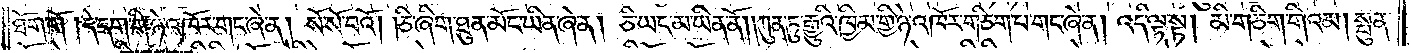ཐོག་གོ །དེ་དག་གི་ཉེ་འཁོར་གང་ཞེ་ན། སོ་སོ་བའོ། །ཅི་ཞིག་ཐུན་མོང་ཡིན་ཞེ་ན། ཅི་ཡང་མ་ཡིན་ནོ། །ཀུན་ཏུ་རྒྱུའི་ཁྱིམ་གྱི་ཉེ་འཁོར་གཅིག་པ་གང་ཞེ་ན། འདི་ལྟ་སྟེ། མི་གཅིག་གིའམ། སྤུན་
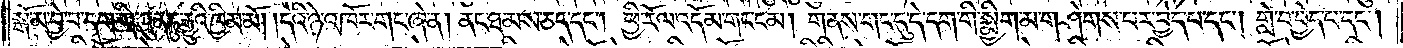སྒོ་མ་བྱེ་བ་དག་གི་ཀུན་ཏུ་རྒྱུའི་ཁྱིམ་མོ། །དེའི་ཉེ་འཁོར་གང་ཞེ་ན། ནང་ཐམས་ཅད་དང༌། ཕྱི་རོལ་འདོམ་གང་ངམ། གནས་གང་དུ་དེ་དག་གི་སྨྱིག་མ་གཤེགས་པར་བྱེད་པ་དང༌། གླེ་བ་བྱེད་པ་དང༌།
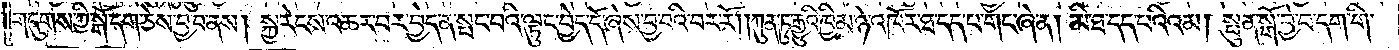གདུགས་ཀྱི་སྒོ་དག་ཅེས་བྱ་བ་ནས། སྐྱ་རེངས་འཆར་བར་བྱེད་ན་སྤང་བའི་ལྟུང་བྱེད་དོ་ཞེས་བྱ་བའི་བར་རོ། །ཀུན་ཏུ་རྒྱུའི་ཁྱིམ་ཉེ་འཁོར་ཐ་དད་པ་གང་ཞེ་ན། མི་ཐ་དད་པའིའམ། སྤུན་སྒོ་བྱེ་བ་དག་གི་
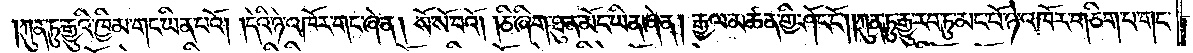ཀུན་ཏུ་རྒྱུའི་ཁྱིམ་གང་ཡིན་པའོ། །དེའི་ཉེ་འཁོར་གང་ཞེ་ན། སོ་སོ་བའོ། །ཅི་ཞིག་ཐུན་མོང་ཡིན་ཞེ་ན། རྒྱལ་མཚན་གྱི་ཤོང་ངོ༌། །ཀུན་ཏུ་རྒྱུ་རབ་ཏུ་མང་པོ་ཉེ་འཁོར་གཅིག་པ་གང་
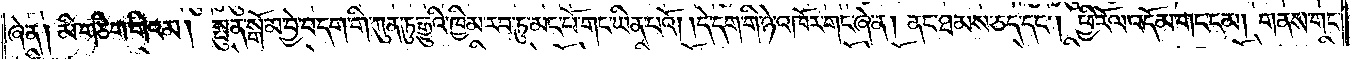ཞེ་ན། མི་གཅིག་གིའམ། སྤུན་སྒོ་མ་བྱེ་བ་དག་གི་ཀུན་ཏུ་རྒྱུའི་ཁྱིམ་རབ་ཏུ་མང་པོ་གང་ཡིན་པའོ། །དེ་དག་གི་ཉེ་འཁོར་གང་ཞེ་ན། ནང་ཐམས་ཅད་དང༌། ཕྱི་རོལ་འདོམ་གང་ངམ། གནས་གང་
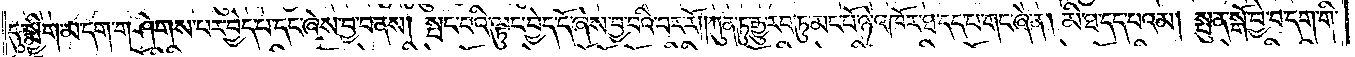དུ་སྨྱིག་མ་དག་གཤེགས་པར་བྱེད་པ་དང་ཞེས་བྱ་བ་ནས། སྤང་བའི་ལྟུང་བྱེད་དོ་ཞེས་བྱ་བའི་བར་རོ། །ཀུན་ཏུ་རྒྱུ་རབ་ཏུ་མང་པོ་ཉེ་འཁོར་ཐ་དད་པ་གང་ཞེ་ན། མི་ཐ་དད་པའམ། སྤུན་སྒོ་བྱེ་བ་དག་གི་
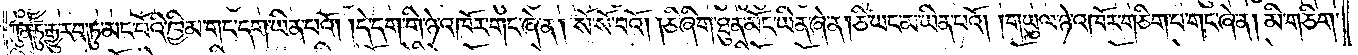ཀུན་ཏུ་རྒྱུ་རབ་ཏུ་མང་པོའི་ཁྱིམ་གང་དག་ཡིན་པའོ། །དེ་དག་གི་ཉེ་འཁོར་གང་ཞེ་ན། སོ་སོ་བའོ། །ཅི་ཞིག་ཐུན་མོང་ཡིན་ཞེ་ན། ཅི་ཡང་མ་ཡིན་པའོ། །གཡུལ་ཉེ་འཁོར་གཅིག་པ་གང་ཞེ་ན། མི་གཅིག་
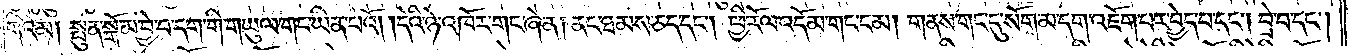གིའམ། སྤུན་སྒོ་མ་བྱེ་བ་དག་གི་གཡུལ་གང་ཡིན་པའོ། །དེའི་ཉེ་འཁོར་གང་ཞེ་ན། ནང་ཐམས་ཅད་དང༌། ཕྱི་རོལ་འདོམ་གང་ངམ། གནས་གང་དུ་སོག་མ་དག་འཇོག་པར་བྱེད་པ་དང༌། བྲེ་བ་དང༌།
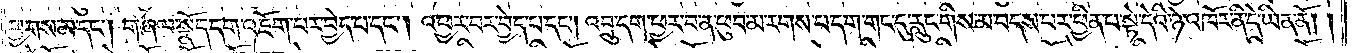ཕྱགས་མ་དང༌། གཞལ་སྣོད་དག་འཇོག་པར་བྱེད་པ་དང༌། འཕྱར་བར་བྱེད་པ་དང༌། འབྲུ་དག་ཕྱར་བ་ན་ཕུབ་མ་རགས་པ་དག་གང་དུ་རླུང་གིས་མ་བདས་པར་ཕྱིན་པ་སྟེ་དེའི་ཉེ་འཁོར་ནི་དེ་ཡིན་ནོ། །
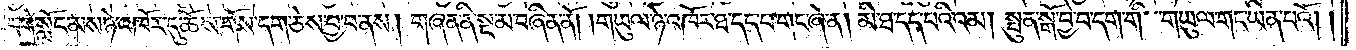དགེ་སློང་མས་ཉེ་འཁོར་དུ་ཆོས་གོས་དག་ཅེས་བྱ་བ་ནས། གཞན་ནི་སྔ་མ་བཞིན་ནོ། །གཡུལ་ཉེ་འཁོར་ཐ་དད་པ་གང་ཞེ་ན། མི་ཐ་དད་པའི་འམ། སྤུན་སྒོ་བྱེ་བ་དག་གི་གཡུལ་གང་ཡིན་པའོ། །
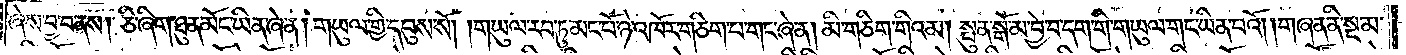ཞེས་བྱ་བ་ནས། ཅི་ཞིག་ཐུན་མོང་ཡིན་ཞེ་ན། གཡུལ་གྱི་དབུས་སོ། །གཡུལ་རབ་ཏུ་མང་པོ་ཉེ་འཁོར་གཅིག་པ་གང་ཞེ་ན། མི་གཅིག་གིའམ། སྤུན་སྒོ་མ་བྱེ་བ་དག་གི་གཡུལ་གང་ཡིན་པའོ། །གཞན་ནི་སྔ་མ་
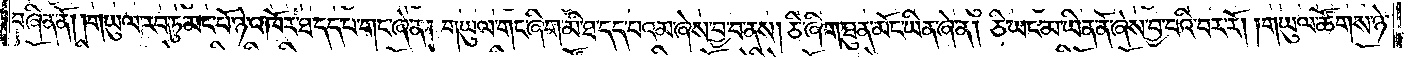བཞིན་ནོ། །གཡུལ་རབ་ཏུ་མང་པོ་ཉེ་འཁོར་ཐ་དད་པ་གང་ཞེ་ན། གཡུལ་གང་ཞིག་མི་ཐ་དད་པའམ་ཞེས་བྱ་བ་ནས། ཅི་ཞིག་ཐུན་མོང་ཡིན་ཞེ་ན། ཅི་ཡང་མ་ཡིན་ནོ་ཞེས་བྱ་བའི་བར་རོ། །གཡུལ་ཚོགས་ཉེ་
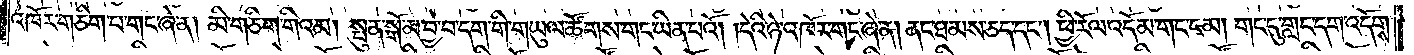འཁོར་གཅིག་པ་གང་ཞེ་ན། མི་གཅིག་གིའམ། སྤུན་སྒོ་མ་བྱེ་བ་དག་གི་གཡུལ་ཚོགས་གང་ཡིན་པའོ། །དེའི་ཉེ་འཁོར་གང་ཞེ་ན། ནང་ཐམས་ཅད་དང༌། ཕྱི་རོལ་འདོམ་གང་ངམ། གང་དུ་གླང་དག་འདོགས་
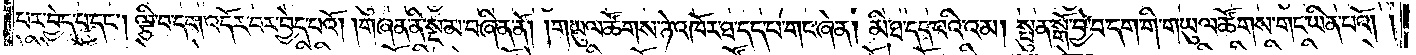པར་བྱེད་པ་དང༌། ལྕི་བ་དག་འདོར་བར་བྱེད་པའོ། །གཞན་ནི་སྔ་མ་བཞིན་ནོ། །གཡུལ་ཚོགས་ཉེ་འཁོར་ཐ་དད་པ་གང་ཞེ་ན། མི་ཐ་དད་པའི་འམ། སྤུན་སྒོ་བྱེ་བ་དག་གི་གཡུལ་ཚོགས་གང་ཡིན་པའོ། །
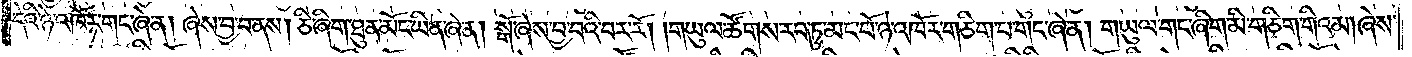དེའི་ཉེ་འཁོར་གང་ཞེ་ན། ཞེས་བྱ་བ་ནས། ཅི་ཞིག་ཐུན་མོང་ཡིན་ཞེ་ན། སྒོ་ཞེས་བྱ་བའི་བར་རོ། །གཡུལ་ཚོགས་རབ་ཏུ་མང་པོ་ཉེ་འཁོར་གཅིག་པ་གང་ཞེ་ན། གཡུལ་གང་ཞིག་མི་གཅིག་གིའམ། ཞེས་
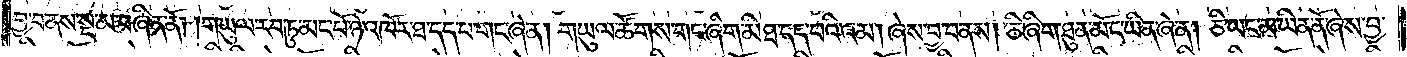བྱ་བ་ནས་སྔ་མ་བཞིན་ནོ། །གཡུལ་རབ་ཏུ་མང་པོ་ཉེ་འཁོར་ཐ་དད་པ་གང་ཞེ་ན། གཡུལ་ཚོགས་གང་ཞིག་མི་ཐ་དད་པའི་འམ། ཞེས་བྱ་བ་ནས། ཅི་ཞིག་ཐུན་མོང་ཡིན་ཞེ་ན། ཅི་ཡང་མ་ཡིན་ནོ་ཞེས་བྱ་
